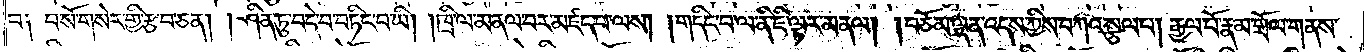བ༑ བ་སོ་གསེར་གྱི་རྩ་བ་ཅན། ཤིན་ཏུ་བདེ་བ་བཏིང་བ་ཡི། །ཁྲི་ལ་མནལ་བར་མཛད་པ་ལས། །གདིང་བ་ལ་ནི་ཇི་ལྟར་མནལ། །བཅོམ་ལྡན་འདས་ཀྱིས་བཀའ་སྩལ་པ། རྒྱལ་པོ་རྣམ་གྲོལ་གནས་
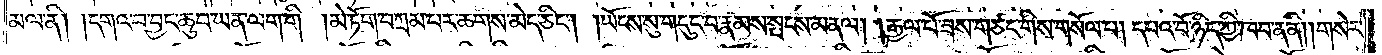མལ་ནི། །དགའ་བ་བྱང་ཆུབ་ཡན་ལག་གི །མེ་ཏོག་བཀྲམ་པར་ཆགས་མེད་ཅིང༌། །ཡོངས་སུ་གདུང་བ་རྣམས་སྤངས་མནལ། །རྒྱལ་པོ་ཟས་གཙང་གིས་གསོལ་པ། དཔའ་བོ་ཉིད་ཀྱི་ཁབ་ན་ནི། །གསེར་
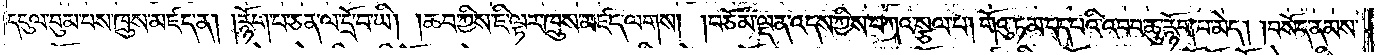དངུལ་བུམ་པས་ཁྲུས་མཛད་ན། །རྙོག་པ་ཅན་ལ་དྲོ་བ་ཡི། །ཆབ་ཀྱིས་ཇི་ལྟར་ཁྲུས་མཛད་ལགས། །བཅོམ་ལྡན་འདས་ཀྱིས་བཀའ་སྩལ་པ། གོའུ་ཏ་མ་དད་པའི་འབབ་ཆུ་རྙོག་པ་མེད། །བསོད་ནམས་
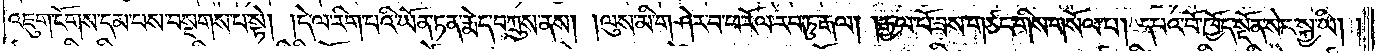འཇུག་ངོགས་དམ་པས་བསྔགས་པ་སྟེ། །དེ་ལ་རིག་པའི་ཡོན་ཏན་རྨེད་བཀྲུས་ནས། །ལུས་མི་གཤེར་བ་ཕ་རོལ་རབ་ཏུ་རྒལ། །རྒྱལ་པོ་ཟས་གཙང་གིས་གསོལ་པ། དཔའ་བོ་ཁྱོད་སྔོན་སེར་སྐྱ་ཡི། །
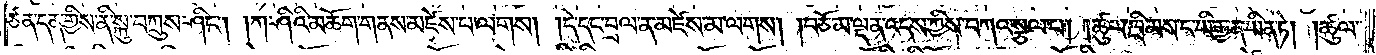ཙན་དན་གྱིས་ནི་སྐུ་བཀྲུས་ཤིང༌། །ཀ་ཤིའི་མཆོག་གནས་མཛེས་པ་ལགས། །དེ་དང་བྲལ་ན་མཛེས་མ་ལགས། །བཅོམ་ལྡན་འདས་ཀྱིས་བཀའ་སྩལ་པ། །ཚུལ་ཁྲིམས་ང་ཡི་རྒྱན་ཡིན་ཏེ། །ཚུལ་
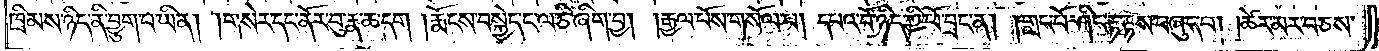ཁྲིམས་ཉིད་ནི་བྱུག་པ་ཡིན། །གསེར་དང་ནོར་བུ་རྣ་ཆ་དག །རྨོངས་བསྐྱེད་ང་ལ་ཅི་ཞིག་བྱ། །རྒྱལ་པོས་གསོལ་པ། དཔའ་བོ་ཉིད་ཀྱི་ཕོ་བྲང་ན། །གླང་པོ་ཤིང་རྟ་རྟས་བཞུད་པ། །ཚེར་མར་བཅས་
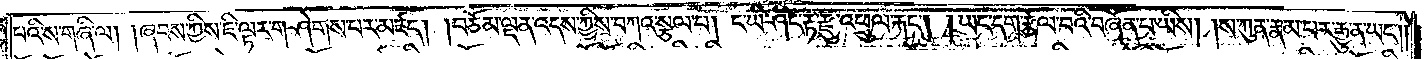པའི་ས་གཞི་ལ། །ཞབས་ཀྱིས་ཇི་ལྟར་གཤེགས་པར་མཛད། །བཅོམ་ལྡན་འདས་ཀྱིས་བཀའ་སྩལ་པ། ང་ཡི་ཤིང་རྟ་རྫུ་འཕྲུལ་རྐང༌། །ཡང་དག་རྩོལ་བའི་བཞོན་པ་ཡིས། །ས་ཀུན་རྣམ་པར་རྒྱུ་ན་ཡང༌༎
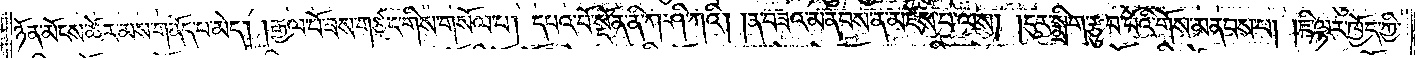ཉོན་མོངས་ཚེར་མས་གནོད་པ་མེད། །རྒྱལ་པོ་ཟས་གཙང་གིས་གསོལ་པ། དཔའ་བོ་སྔོན་ནི་ཀ་ཤི་ཀའི། །ན་བཟའ་མནབས་ན་མཛེས་པ་ལས། །ངུར་སྨྲིག་རྩུབ་པོའི་གོས་མནབས་པ། །ཇི་ལྟར་ཁྱོད་ཀྱི་
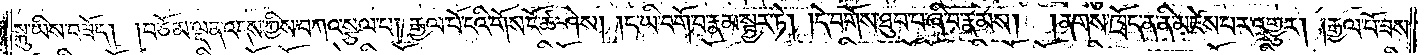སྐུ་ཡིས་བཟོད། །བཅོམ་ལྡན་འདས་ཀྱིས་བཀའ་སྩལ་པ། རྒྱལ་པོ་ངའི་གོས་ངོ་ཚ་ཤེས། །ང་ཡི་བགོ་བ་རྣམ་སྦྱར་ཏེ། །དེ་བགོས་ཐུབ་པ་ཞི་བ་རྣམས། །ནགས་ཁྲོད་ན་ནི་མཛེས་པར་འགྱུར། །རྒྱལ་པོ་ཟས་
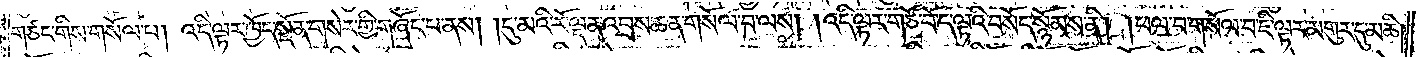གཙང་གིས་གསོལ་པ། འདི་ལྟར་ཁྱོད་སྔོན་གསེར་གྱི་གཞོང་པ་ནས། །དུ་མའི་རོ་ལྡན་འབྲས་ཆན་གསོལ་བ་ལས། །འདི་ལྟར་གཙོ་བོ་ད་ལྟའི་བསོད་སྙོམས་ནི། །ཕལ་བ་གསོལ་བ་ཇི་ལྟར་མགུར་དུ་མཆི།
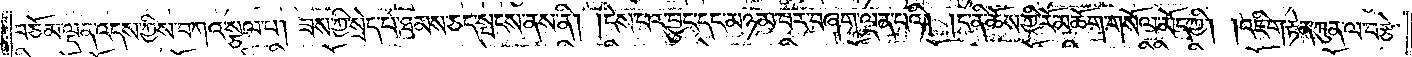བཅོམ་ལྡན་འདས་ཀྱིས་བཀའ་སྩལ་པ། ཟས་ཀྱི་སྲེད་པ་ཐམས་ཅད་སྤངས་ནས་ནི། །ངེས་པར་བྱུང་དང་མཉམ་པར་བཞག་ལྡན་པའི། །ང་ནི་ཆོས་ཀྱི་རོ་མཆོག་གསོལ་མོད་ཀྱི། །འཇིག་རྟེན་ཀུན་ལ་བརྩེ་
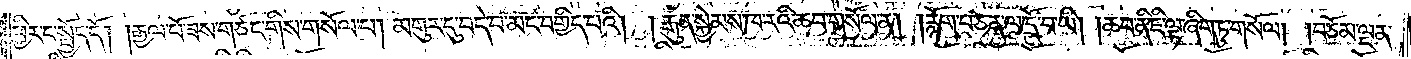ཕྱིར་ང་སྤྱོད་དོ། །རྒྱལ་པོ་ཟས་གཙང་གིས་གསོལ་པ། མགུར་དུ་བདེ་བ་མང་བགྱིད་པའི། །རྒུན་སྐྱེམས་ཁ་རའི་ཆབ་གསོལ་ན། །རྙོག་པ་ཅན་ལ་དྲོ་བ་ཡི། །ཆབ་ནི་ཇི་ལྟ་ཞིག་ཏུ་གསོལ། །བཅོམ་ལྡན་
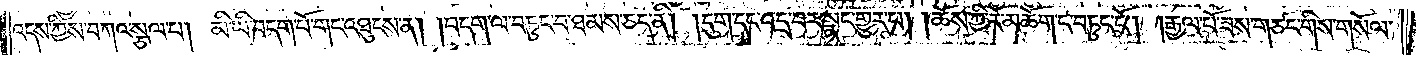འདས་ཀྱིས་བཀའ་སྩལ་པ། མི་ཡི་བདག་པོ་གང་འཐུངས་ན། །བདག་ལ་བཏུང་བ་ཐམས་ཅད་ནི། །དུག་དང་འདྲ་བར་སྣང་གྱུར་པ། །ཆོས་ཀྱི་རོ་མཆོག་ང་བཏུང་ངོ༌། །རྒྱལ་པོ་ཟས་གཙང་གིས་གསོལ་
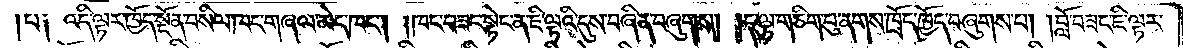།པ༑ འདི་ལྟར་ཁྱོད་སྔོན་བསིལ་ཁང་གཞལ་མེད་ཁང༌། །ཁང་བཟང་སྟེང་ན་ཇི་ལྟའི་དུས་བཞིན་བཞུགས། །ད་ལྟ་གཅིག་པུ་ནགས་ཁྲོད་ཁྱོད་བཞུགས་པ། །བློ་བཟང་ཇི་ལྟར་
